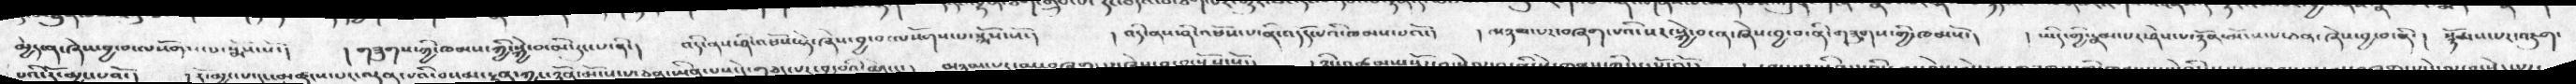མྱེད་ན་ཞེས་བྱ་བ་ལསོགས་ལ་སྨོས་སོ་།   ། གཟུགས་ཀྱི་ཁམས་ཀྱི་སྐྱེ་བ་མི་རུང་པ་ནི་།   འདི་ནས་ཤི་འཕོས་སྟེ་ཞེས་བྱ་བ་ལསོགས་པ་སྨོས་སོ་།  ། འདི་ནས་ཤི་འཕོས་པ་ནི་འདོད་པའི་ཁམས་པའོ་།   ། མཉམ་པར་བཞག་པའི་སར་སྐྱེ་བ་ན་ཞེས་བྱ་བ་ན་གཟུགས་གྱི་ཁམསོ་།  ། ཡིད་གྱི་རྣམ་པར་ཤེས་པ་ཉོན་མོངས་པ་ཅན་ཞེས་བྱ་བ་ནི་།   སྙོམས་པར་འཇུག་
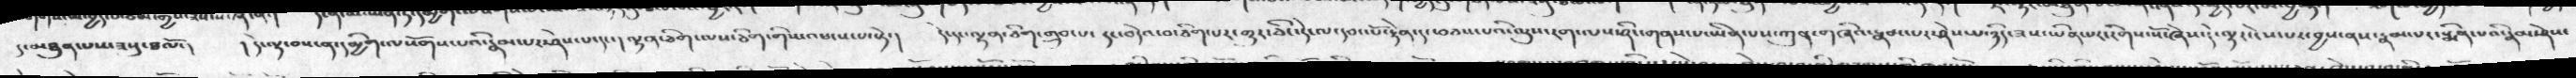དུ་མཐུན་པས་ཟས་ཐལོ་།  །དེ་ལྟ་བས་ན་དམྱིག་ལསོགས་པའི་རྣམ་པར་ཤེས་པ་དང་།  ལྷན་ཅིག་ལས་ཅིག་འཕངས་པ་སྟེ་།  དེ་དང་ལྷན་ཅིག་གྲུབ་པ་དང་བདེའ་བ་ཅིག་པར་གྱུར་ཅིང་དེ་ལ་དབང་པོ་རྟེན་དང་ཕབས་པའི་ལུས་ངག་ལས་ཤིང་གནས་པ་ཡིན་པས་ཀུན་གཞིའ་རྣམ་པར་ཤེས་པ་ཉིད་ཟས་ཡིན་པར་རིགས་སོ་ཞེས་དེ་ལྟར་ངེས་པར་བྱས་ནས་རྣམ་པར་སྨིན་པའི་རྣམ་ཤེས་
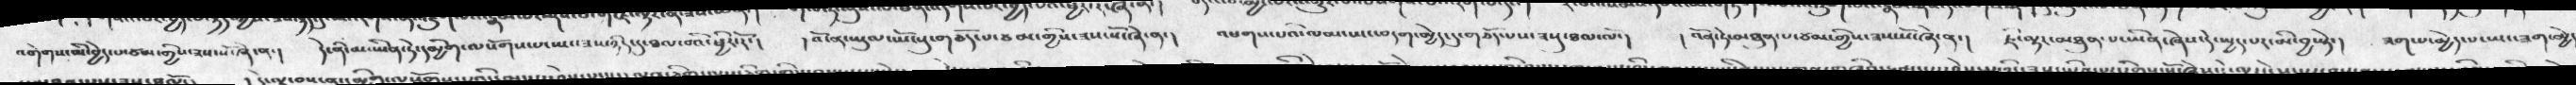འགེགས་མི་བྱེད་པ་ཙམ་གྱིས་ཟས་སོ་ཞེ་ན་།  དེ་ནི་མ་ཡིན་ཏེ་དམྱིག་ལསོགས་པ་ཡང་ཟས་ཉིད་དུ་ཐལ་བའི་ཕྱིར་རོ་།  ། འོ་ན་ཡུལ་ཡོངསུ་གཅོད་པ་ཙམ་གྱིས་ཟས་སོ་ཞེ་ན་།   འཕགས་པའི་ལམ་ཡང་བདག་མྱེད་དུ་གཅོད་པས་ཟསུ་ཐལ་ལོ་།  ། འོན་ཏེ་མཐུན་ཙམ་གྱིས་ཟས་སོ་ཞེ་ན་།  ཇི་ལྟར་མཐུན་པ་ཡིན་ཞེས་དེ་སྤྱད་པར་མི་བྱ་སྟེ་།  ཟག་པ་མྱེད་པ་ཡང་ཟག་མྱེད་
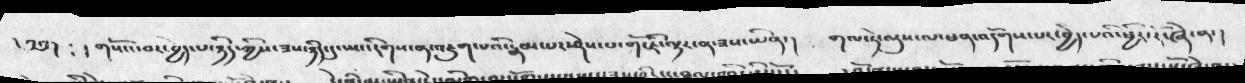༄༅།  ༴ ། གསོའ་བར་བྱེད་པ་ཉིད་ཀྱིས་ཟས་ཉིད་དུ་ཡང་རིགས་ན་འཇུག་པའི་རྣམ་པའི་རྣམ་པར་ཤེས་པ་གོ་ཇི་ལྟར་ན་ཟས་ཡིན་།   གལ་ཏེ་ལུས་ལ་ཕན་པའི་འདོགས་པར་བྱེད་པའི་ཕྱིར་རོ་ཞེ་ན་།
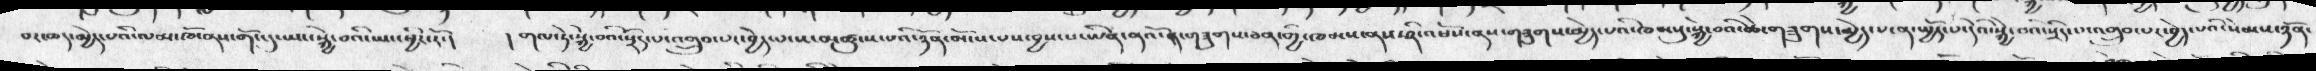བར་ཆད་མྱེད་པའི་ལམ་ཁོ་ནས་གོང་དུ་ཡང་སྐྱེ་བའི་ཡང་ཕྱིར་རོ་།  ། གལ་ཏེ་སྐྱེ་བའི་སྲིད་པ་འགྲུབ་པར་བྱེད་བ་ས་མཚུངས་པའི་ཉོན་མོངས་པས་བྱས་པ་ཡིན་ནའོ་ན་གཟུགས་ཅན་གྱི་ཁམས་ནས་ཤི་འཕོས་ནས་གཟུགས་མྱེད་པའི་ཁམསུ་སྐྱེ་བའི་ཚེ་གཟུགས་མྱེད་པ་ན་སྤྱོད་པ་དེའི་སྐྱེ་བའི་སྲིད་པ་འགྲུབ་པར་བྱེད་པའི་སེམས་ཉོན་
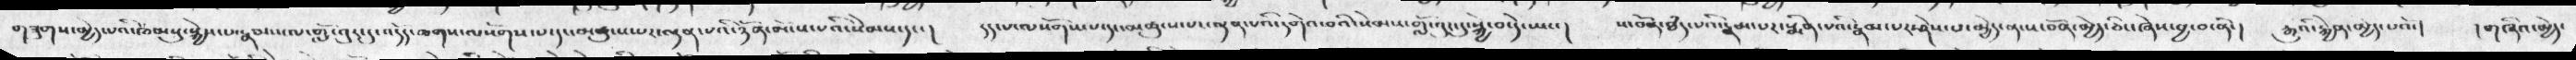གཟུགས་མྱེད་པའི་ཁམསུ་སྐྱེས་པ་རྣམས་ལ་གློ་བུར་དུ་འདོད་ཆགས་ལསོགས་པ་དང་མཚུངས་པར་ལྡན་པའི་ཉོན་མོངས་པའི་སེམས་དང་།   དད་པ་ལསོགས་པ་དང་མཚུངས་པར་ལྡན་པའི་དགེའ་བའི་སེམས་གློ་བུར་དུ་སྐྱེ་བ་དེ་ཡང་།    ས་བོན་ཐཾད་པའི་རྣམ་པར་སྨིན་པའི་རྣམ་པར་ཤེས་པ་མྱེད་ན་ས་བོན་མྱེད་ཅིང་ཞེས་བྱ་བ་ནི་།   རྒྱུའི་རྐྱེན་མྱེད་པའོ་།   །གཞིའ་མྱེད་
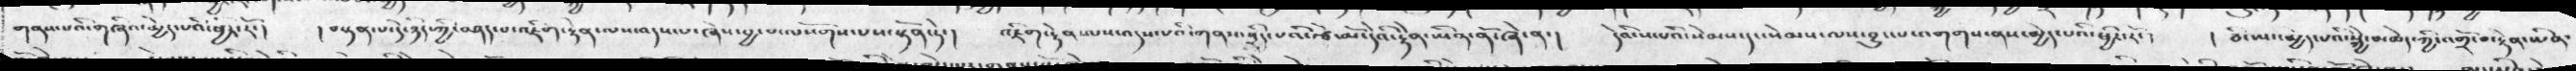གནས་པའི་གཞིའ་མྱེད་པའི་ཕྱིར་རོ་།  །བསྟན་པ་དེ་ཉིད་ཀྱི་བཤད་པ་འཇིག་རྟེན་ལས་འདས་པ་ཞེས་བྱ་བ་ལསོགས་པས་སྟོན་ཏེ་།  འཇིག་རྟེན་ལས་འདས་པའི་གནས་སྲིད་པའི་རྩེ་མོ་དེའི་རྟེན་ཡིན་ནོ་ཞེ་ན་།   དེའི་ས་པའི་སེམས་དང་སེམས་ལས་བྱུང་པ་འགག་ནས་མྱེད་པའི་ཕྱིར་རོ་།   །ཅི་ཡང་མྱེད་པའི་སྐྱེ་མཆེད་ཀྱི་འགྲོ་བ་རྟེན་ཡིན་
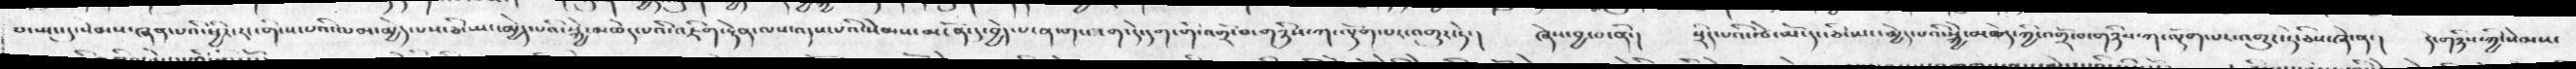པ་ཡང་དུ་སེམས་ཞན་པའི་ཕྱིར་རང་གི་ས་པའི་ལམ་མྱེད་པས་ཅི་ཡང་མྱེད་པའི་སྐྱེ་མཆེད་པའ་འཇིག་རྟེན་ལས་འདས་པའི་སེམས་མངོན་དུ་བྱེད་ན་གང་ཟག་དེ་དག་གི་འགྲོ་བ་གཉིས་ཀ་ལྡོག་པར་འགྱུར་ཏེ་།  ཞེས་བྱ་བ་ནི་།  སྲིད་པའི་རྩེ་མི་དང་ཅི་་ཡང་མྱེད་པའི་སྐྱེ་མཆེད་ཀྱི་འགྲོ་བ་གཉིས་ཀ་ལྡོག་པར་འགྱུར་ཏེ་ཅིས་ཞེ་ན་།   དེ་གཉིས་ཀྱི་སེམས་
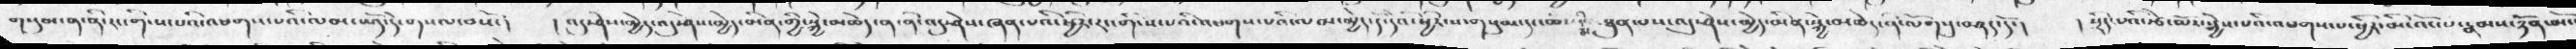གསུམ་ན་ནི་རང་གི་ས་པའི་འཕགས་པའི་ལམ་ཡོད་དེ་གསལ་བསོ་།  །  འདུ་ཤེས་མྱེད་འདུ་ཤེས་མྱེད་མིན་གྱི་སྐྱེ་མཆེད་ན་ནི་འདུ་ཤེས་ཞན་པའི་ཕྱིར་རང་གི་ས་པའི་འཕགས་པའི་ལམ་མྱེད་དེ་དེའི་ཕྱིར་ས་གསུམ་དང་ཆ་མཐུན་པས་འདུ་ཤེས་མྱེད་མིན་སྐྱེ་མཆེད་ནི་ལོགསུ་བཤད་དོ་།  ། སྲིད་པའི་རྩེ་མོར་སྐྱེས་པའི་འཕགས་པ་ཕྱིར་མི་འོང་པ་རྣམས་ཉོན་མོང
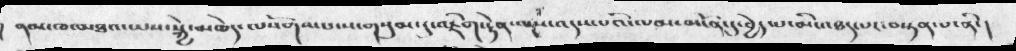ནམ་ཁ་མཐའ་ཡས་སྐྱེ་མཆེད་ལསོགས་པ་ས་གསུམ་དུ་འཇིག་རྟེན་ལས་འདས་པའི་ལམ་མངོན་དུ་བྱེད་པ་མི་འཐད་པར་བསྟན་པ་ནི་།
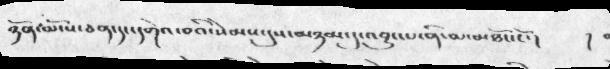ཉོན་མོངས་པ་ཅན་དང་དགེའ་བའི་སེམས་དུས་མཉམ་དུ་འབྱུང་པ་ནི་མ་མཐོང་ངོ་།  །
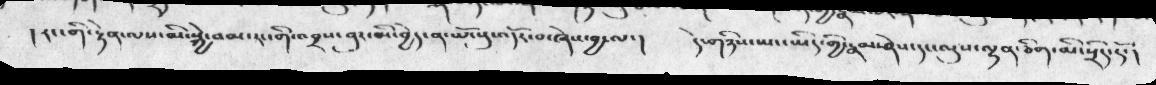། རང་གི་རྟེན་ལས་མི་སྐྱེ་བམ་རང་གི་འབྲས་བུར་མི་བྱེད་ན་ཡོངསུ་འདོར་བ་ཞེས་བྱ་ལ་།   དེ་གཉིས་ཡང་ཡིད་ཀྱི་རྣམ་ཤེས་དང་ལུས་ལྷན་ཅིག་མི་སྲིད་དོ་།
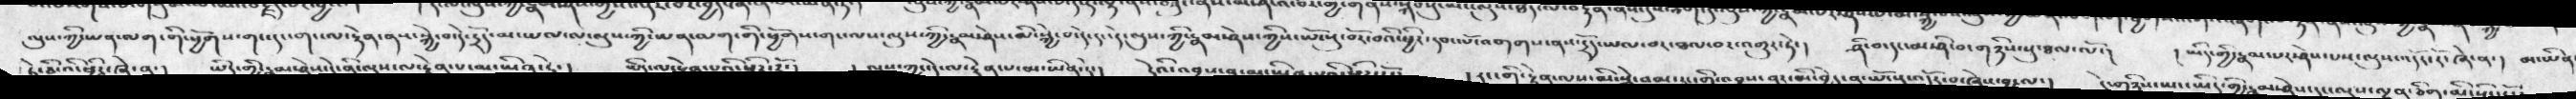ལུས་ཀྱི་ཡན་ལག་གི་ཕྱོགས་གང་དང་གང་ལ་རྟེན་སྐྱེ་བ་དེ་དྲོད་མ་ཡལ་ལ་ལུས་ཀྱི་ཡན་ལག་གི་ཕྱོགས་གང་ལས་ལུས་ཀྱི་རྣམ་ཤེས་ཀྱིས་ཡོངསུ་བོར་བའི་ཕྱིར་དབང་པོ་འགགས་ནས་དྲོད་ཡལ་བར་ཐལ་བར་འགྱུར་ཏེ་།   ཤི་བ་དང་མ་ཤི་བ་གཉིས་སུ་ཐལ་ལོ་།  ། ཡིད་ཀྱི་རྣམ་པར་ཤེས་པས་ལུས་འདོད་དོ་ཞེ་ན་།  མ་ཡིན་
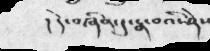། དེ་བཞིན་དུ་རྣ་བའི་ཤེས
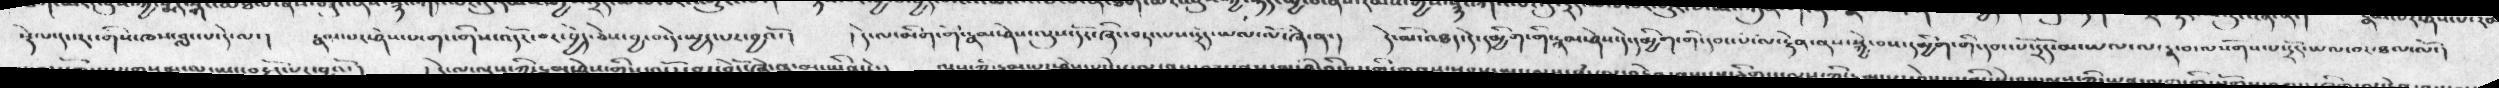སྡེ་པ་དང་རང་གིས་ཁས་བླང་པ་དེ་ལ་།  རྣམ་པར་ཤེས་པ་གང་གིས་འདོར་བར་བྱེད་ཅེས་བྱ་བ་དེ་སྤྱད་པར་བྱའོ་།  ། དེ་ལ་མིག་གི་རྣམ་ཤེས་ལུས་དོར་ཞིང་བཏང་བས་དྲོད་ཡལ་ལོ་ཞེ་ན་།  དེ་མི་འཐད་དེ་དམྱིག་གི་རྣམ་གི་དབང་པོ་ལ་རྟེན་ནས་སྐྱེ་བས་དམྱིག་གི་དབང་པོ་དྲོད་མ་ཡལ་ལ་རྣ་བ་ལསོགས་པ་དྲོད་ཡལ་བར་ཐལ་ལོ་།
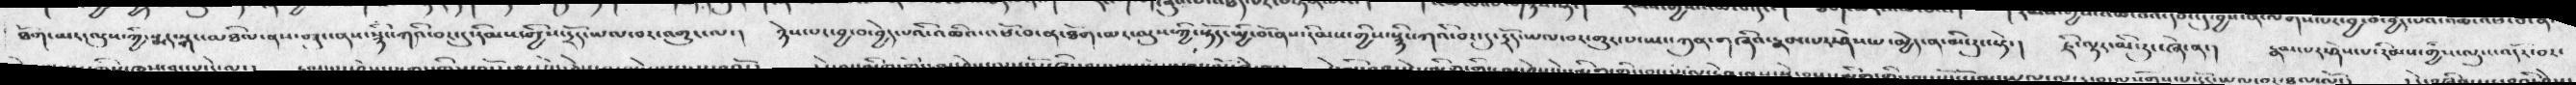ཐོག་མར་ལུས་ཀྱ་སྨད་སྒང་མཐིལ་ནས་བཟང་ནས་སྙིང་ཀའི་བར་དུ་རིམས་གྱིས་དྲོད་ཡལ་བར་འགྱུར་ལ་།  ཉེས་པར་བྱ་བ་བྱེད་པའི་འཆིའ་འཕོ་བ་ན་ཐོག་མར་ལུས་ཀྱི་སྟོད་སྤྱི་བོ་ནས་རིམས་གྱིས་སྙིང་ཀའི་བར་དུ་དྲོད་ཡལ་བར་གྱུར་པ་ཡང་ཀུན་གཞིའ་རྣམ་པར་ཤེས་པ་མྱེད་ན་མི་རུང་སྟེ་།   ཇི་ལྟར་་མི་རུང་ཞེ་ན་།  རྣམ་པར་ཤེས་པ་རིམས་གྱིས་ལུས་འདོར་བར་
